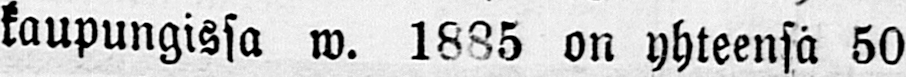kaupungissa m. 1885 on yhteensä 50
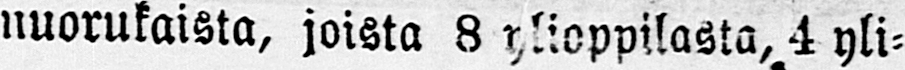nuorukaista, joista 8 ylioppilasta, 4 yli-
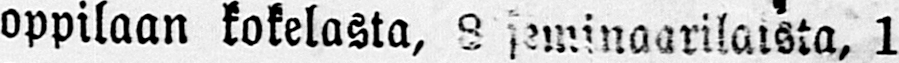oppilaan kokelasta, 8 seminaarilaista, 1
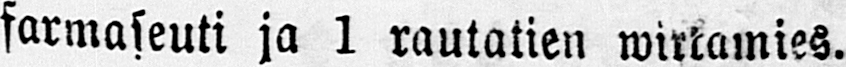farmaseuti ja 1 rautatien wirkamies.
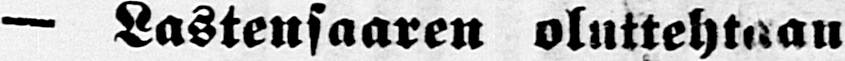— Lastensaaren oluttehtaan
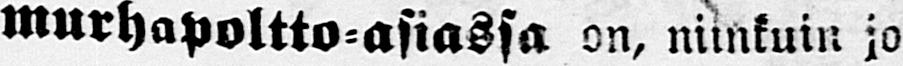murhapoltto-asiassa on, niinkuin jo
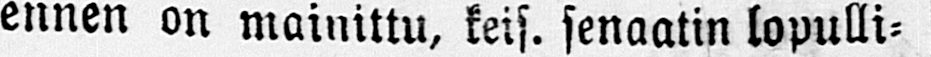ennen on mainittu, keis. senaatin lopulli-
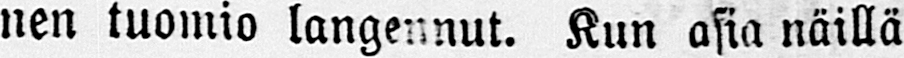nen tuomio langennut. Kun asia näillä
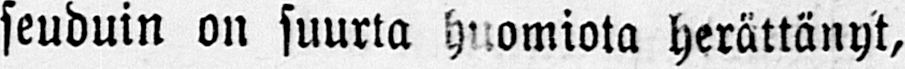seuduin on suurta huomiota herättänyt,
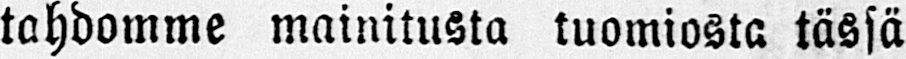tahdomme mainitusta tuomiosta tässä
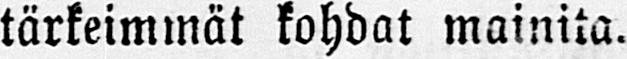tärkeimmät kohdat mainita.
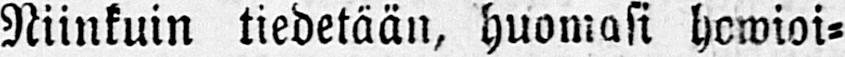Niinkuin tiedetään, huomasi howioi-
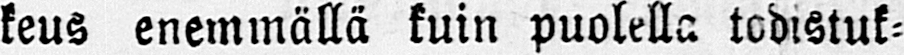keus enenemällä kuin puolella todistuk-
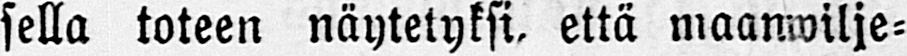sella toteen näytetyksi, että maanwilje-
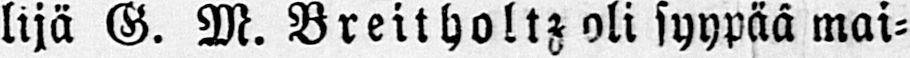lijä G. M. Breitholtz oli syypää mai-
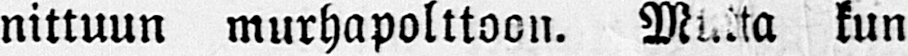nittuun murhapolttoon. Mutta kun
